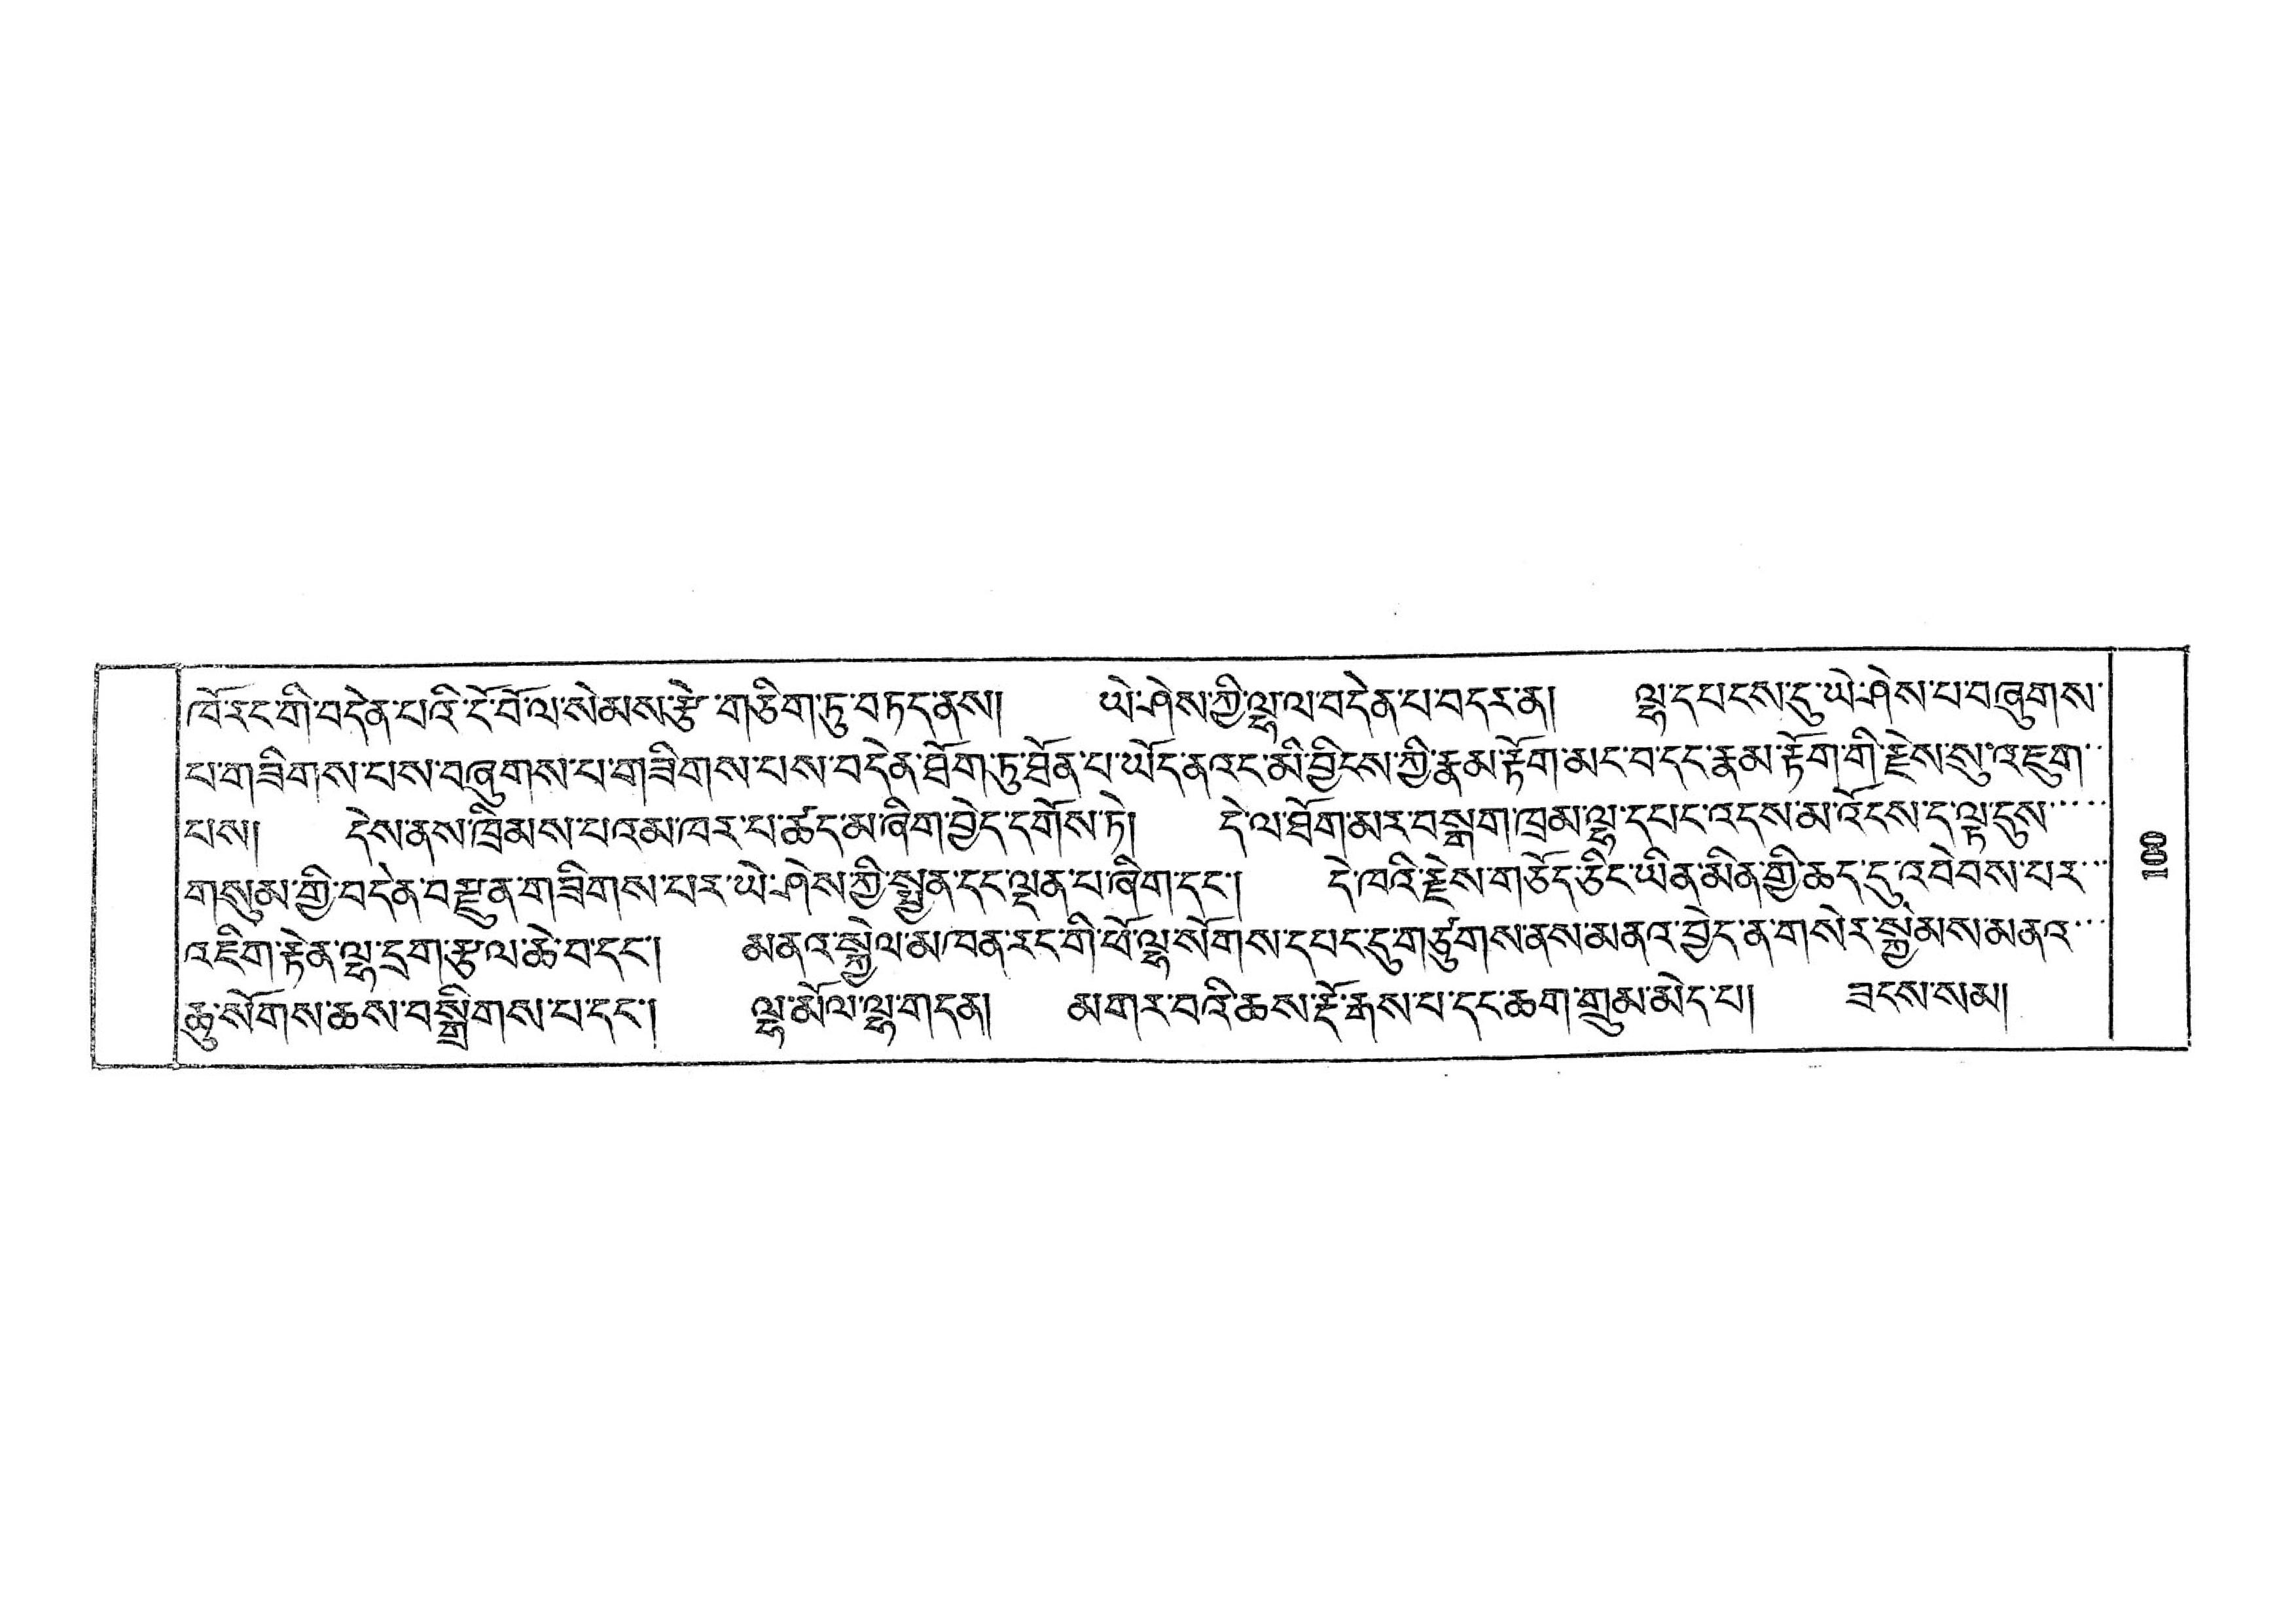ཁོ་རང་གི་བདེན་པའི་ངོ་བོ་ལ་སེམས་རྩེ་གཅིག་ཏུ་བཏད་ནས། ཡེ་ཤེས་ཀྱི་ལྷ་ལ་བདེན་པ་བདར་ན། ལྷ་དཔངས་དུ་ཡེ་ཤེས་པ་བཞུགས་
པ་གཟིགས་པས་བཞུགས་པ་གའཟིགས་པས་བའདེན་ཐོག་དུ་ཐོན་པ་ཡོད་ནའང་མི་བྱིངས་ཀྱི་རྣམ་རྟོག་མང་བ་དང་རྣམ་རྟོག་གི་རྗེས་སུ་འཇུག་་
པས། དེས་ནས་ཁྲིམས་པའམ་ཁར་པ་ཚད་མ་ཞིག་བྱེད་དགོས་ཏེ། དེ་ལ་ཐོག་མར་བསྒག་ཁྲམ་ལྷ་དཔང་འདས་མ་འོངས་ད་ལྟ་དུས་་་་་
གསུམ་གྱི་བདེན་བརྫུན་གཟིགས་པར་ཡེ་ཤེས་ཀྱི་སྤྱན་དང་ལྡན་པ་ཞིག་དང་། དེ་ཁའི་རྗེས་གཅོད་ཅིང་ཡིན་མིན་གྱི་ཆད་དུ་འབེབས་པར་་་
འཇིག་རྟེན་ལྷ་དྲག་རྩལ་ཆེ་བ་དང་། མནའ་སྐྱེལ་མཁན་རང་གི་ཕོ་ལྷ་སོགས་དཔང་དུ་གཙུགས་ནས་མནའ་བྱེད་ན་གསེར་སྐྱེམས་མནའ་་་
ཆུ་སོགས་ཆས་བསྒྲིགས་པ་དང་། ལྷ་མོལ་ལྷ་གདན། མགར་བའི་ཆས་རྡོ་རྒས་པ་དང་ཆག་གྲུམ་མེད་པ། ཟངས་སམ།
